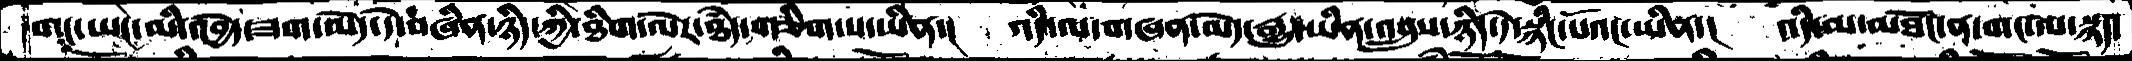གང་ཡང་མི་འབྱེད་ཟག་མེད་དེ་བཞིན་ཉིད་ཀྱི་ཐིག་ལེར་ཐཾད་གཅིག་ས་ཡིན་།   འདི་ལ་གཞན་མེད་རྒྱུ་ཡིན་འབྲུས་ཉིད་དེ་སྙིང་པོའང་ཡིན་།   འདི་མ་མཐོང་ན་གང་ལ་སྙད་
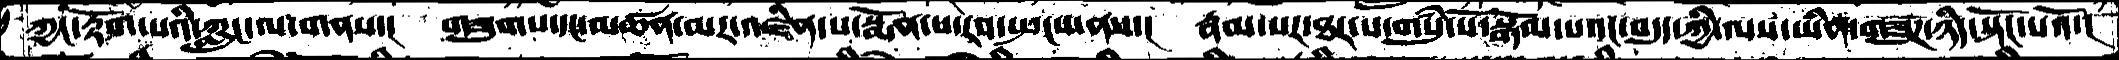ཀྱང་རྟོག་པའི་ཀླུང་ལ་གནས་།   གཟུགས་དང་མཚན་མར་འཛིན་པ་སྨོན་པ་རབ་སྤངས་ནས་།   རྣམ་པར་ཐར་པ་གསུཾ་པོ་སྒོམ་པའང་བདུད་ཀྱི་ལས་ཡིན་གཟུཌ་ཉིད་སྟོང་པའོ་།
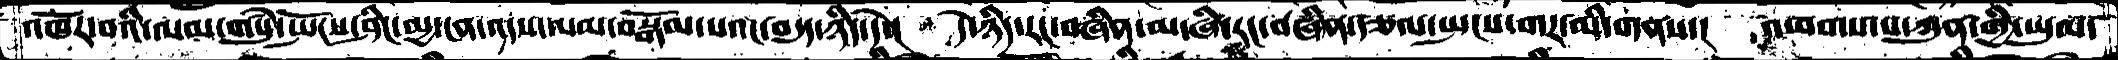འཁོར་བའི་ལམ་གསུཾ་སྤོངས་ཤིང་མྱ་ངན་འདས་ལམ་བསྒོམ་པའང་བདུད་ཉིད་དེ་།   དེ་ཉིད་རང་བཞིན་མ་ཞི་རང་བཞིན་རྩལ་སྤངས་གར་མི་གནས་།   འཕགས་པ་ཀུན་གྱི་ཡུལ་
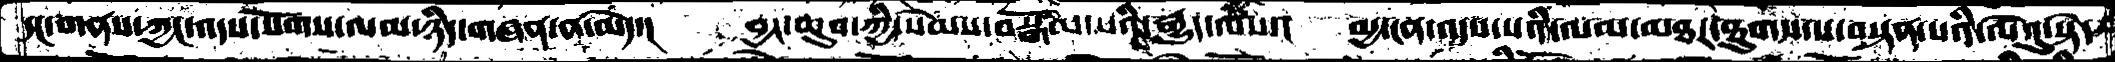དང་གནས་ཀྱང་འདས་སོགས་ལམ་ཉིད་མཞན་ན་མེད་།  བྱང་ཆུབ་ཀྱི་སེམས་བསྒོམ་པའི་རྒྱུད་ལས་།  མྱ་ངན་འདས་པའི་ལམ་མཐར་ཐུགས་པ་བསྟན་པའི་ལེའུ་སྟེ་
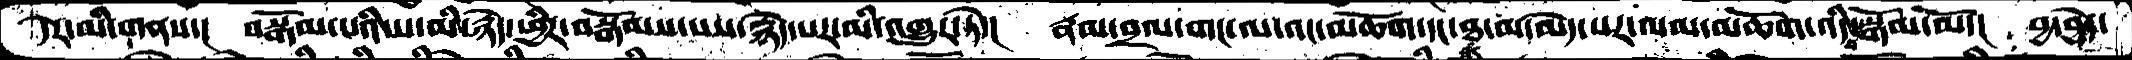དེར་མི་གནས་།  བསྒོམ་པའི་ས་མི་རྙེད་ཕྱིར་བསྒོམས་པས་རྙེད་པར་མི་འགྱུར་ཏེ་།  རྣམ་བྲལ་གང་ལ་འང་མཆོག་དང་ཐ་མ་མེད་པར་ལམ་མཆོག་འདི་སྒོམ་མོ་།  བྱ་བྱེད་
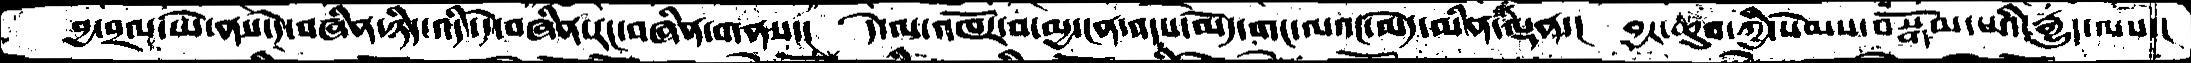བྱ་བྲལ་ཡེ་ནས་དེ་བཞིན་ཉིད་འདི་དེ་བཞིན་རང་བཞིན་གནས་།  དེ་ལ་འཁོར་བ་མྱ་ངན་འདས་མེད་གང་ལའང་མེད་མིན་ལྡན་།  བྱང་ཆུབ་ཀྱི་སེམས་བསྒོམ་པའི་རྒྱུད་ལས་
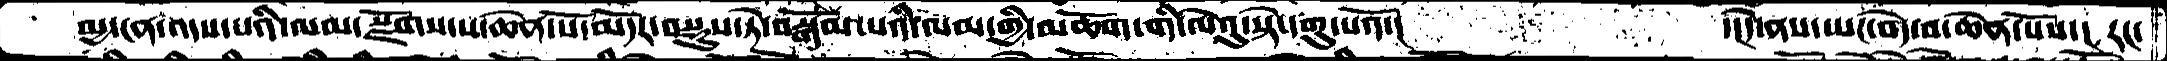མྱ་ངན་འདས་པའི་ལམ་སྫོགས་པ་ཆེན་པོ་མདོར་བསྡུས་ཏེ་བསྒོམ་པའི་ལམ་གྱི་མཆོག་གི་ལེའུ་སྟེ་དགུ་པའོ་།        ་།དེ་ནས་ཡང་བདེ་བ་ཆེེན་པོས་།  རང་
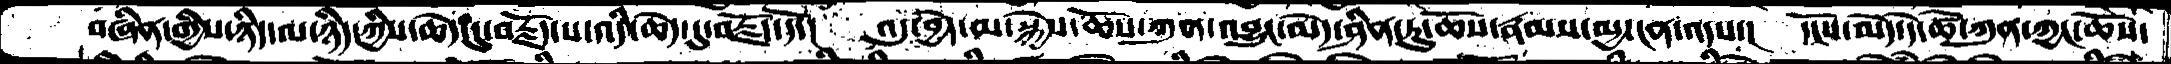བཞིན་གྱིས་ཉིད་ལ་ཉིད་ཀྱིས་ཆེད་དུ་བརྗོད་པ་འདི་ཆེད་དུ་བརྗོད་དོ་།  འདུ་བྱེད་མ་སྐྱེས་ཆོས་ཀུན་འབྱུང་མེད་ཤིན་ཏུ་ཆོས་རྣམས་མྱ་ངན་འདས་།  དངོས་མེད་དེ་ཚོ་ཀུན་ཀྱང་ཆོས་
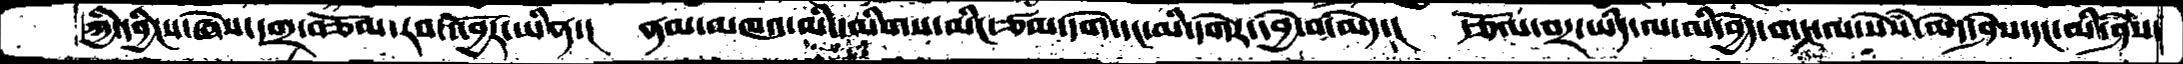ཀྱི་དབྱིངས་ཞེས་དགྲ་བཅོམ་རབ་འབྱོར་ཡིན་།  ནམ་མཁའ་མི་དམིགས་མིང་ཙམ་དགེ་དང་མི་དགེར་དབྱེ་བ་མེད་།  རྩོལ་བར་ཡིད་ལ་མི་བྱེད་གང་ལ་སེཾས་མེད་ཤེས་དང་མི་ཤེས་
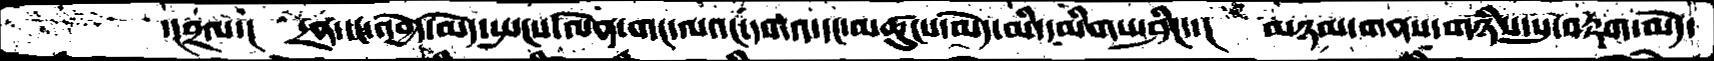་།བྲལ་།  དྲན་དང་འབྱེད་མེད་སྤངས་ལེན་གང་ལའང་དགའ་དང་མཚུངས་མེད་མི་དམིགས་ཤིང་་།  མཉམ་གནས་གཉིས་སུ་བརྟག་མེད་
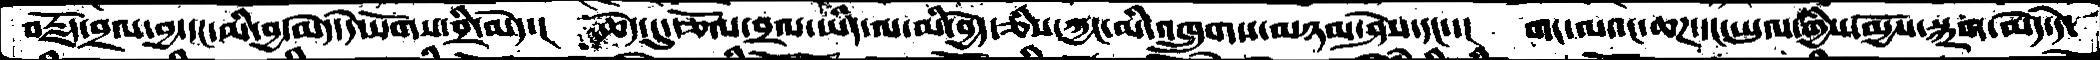བརྗོད་བྲལ་བྱ་དང་མི་བྱ་མེད་དེ་སོགས་བྲི་མེད་།  ཆེད་དུ་རྩོལ་བྲལ་ཡིད་ལ་མི་བྱེད་ཅིས་ཀྱང་མི་འཁྲུགས་མཉམ་ཤེས་དང་་།  གང་ལའང་ཆཌ་དང་ཡུལ་གྱིས་མྱོས་སྐྲག་མེད་དེ་
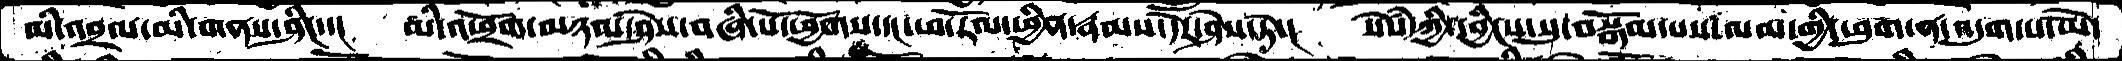མི་འབྲལ་མི་གནས་ཤིང་་།   མི་འཕྲོག་མཉམ་ཤེས་བཞི་པོ་ཕྱོགས་དང་ཕ་རོལ་ཕྱིན་རྣམས་དེར་ཤེས་ཏེ་།   སེསཾ་ཀྱི་དབྱིངས་སུ་བསྒོམ་པས་ལམ་གྱི་ཕུག་ན་འདུག་པ་ཡེ་
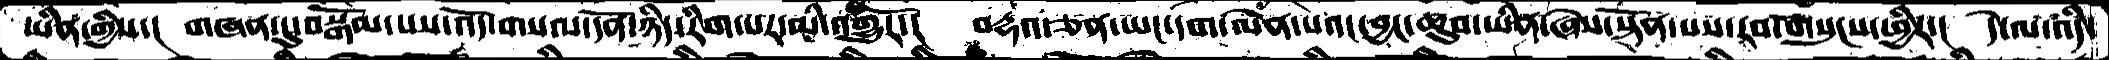ཡིན་གྱིས་།   གཞན་དུ་བསྒོམ་པས་འོད་གསལ་དོན་ཉིད་རིག་པར་མིི་འགྱུརོ་།   བརྡའ་ཅན་ཡང་དག་ལེན་པའང་བྱང་ཆུབ་ཡིན་ཞེས་སྟོན་པས་རབ་གསུངས་ཕྱིར་།  དེ་ལ་འདི་
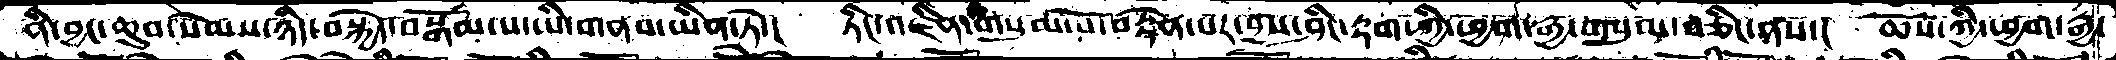ནི་བྱང་ཆུབ་སེམས་ཉིད་བསྐྱེད་བསྒོམ་ས་ཡི་གནས་ཡིན་ཏེ་།   ཏིང་འཛིན་གསུམ་པོ་བརྟེན་པར་བྱས་ཤིང་རྟག་ཀྱི་ཕྱག་རྒྱ་གསུམ་བཅིང་ནས་།   ཆོས་ཀྱི་ཕྱག་རྒྱ་
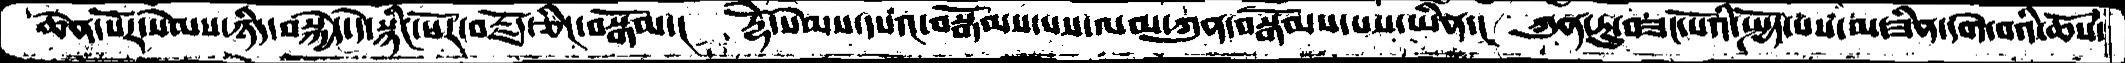ཆེན་པོར་སེམས་ཉིད་བསྐྱེད་དེ་སྙིང་པོར་བརྗོད་ཅིང་བསྒོམ་།    རྡོེ་སེམས་དཔའ་བསྒོམས་པས་ལམ་ཀུན་བསྒོམས་པས་ཡིན་།   ཀུན་ཏུ་བཟང་པོའི་སྤྱོད་པས་མ་ཟིན་དགེ་བའི་ཆོས་
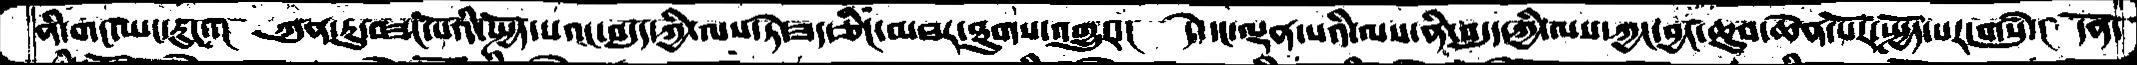ནི་གང་ཡང་རུང་་།   ཀུན་ཏུ་བཟང་པོའི་སྤྱོད་པའང་བདུད་ཀྱི་ལས་ཏེ་ཟད་ཅིང་མཐར་ཐུགས་འགྱུར་།   དེ་དང་ལྡན་པའི་ལས་ནི་བདུད་ཀྱི་ལས་ཀྱང་བྱང་ཆུབ་ཆེན་པོར་སྤྱོད་པར་གསུཾ་།  དོན་
